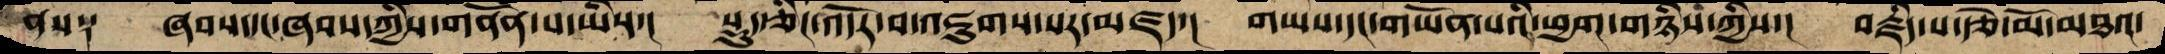ནས༑  ཞབས་དང་ཞབས་ཀྱིས་གནོན་པ་ཡིས་།  སྡུད་ཅིང་འདོར་བ་འཇུགས་པར་མཛད་།   གཡས་དང་གཡོན་པའི་ཕྱག་གཉིས་ཀྱིས་།  བརྗིད་པ་རྩེ་མོ་མཐའ་
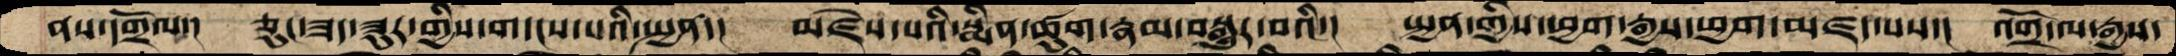ནས་དགྲོལ་།  ཅུང་ཟད་ཟུར་གྱིས་གདངས་པའི་སྤྱན་།  མཛེས་པའི་སྨིན་ཚུག་རྣམ་བསྒྱུར་བའི་།  སྤྱན་གྱིས་ཕྱག་རྒྱས་ཕྱག་མཛད་པས་།  འགྲོ་ལ་རྒྱས་
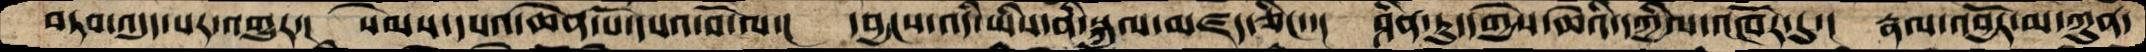བཏབ་འདུད་པར་འགྱུར་།  སེམས་དཔའ་ཆེན་པོ་དཔའ་བོ་ལ་།  དབྱངས་འདི་ཡིས་ནི་སྐུལ་མཛད་ཅིང་་།  ཤིན་ཏུ་དགྱེས་ཆེའི་དཀྱིལ་འཁོར་དུ་།  རྣལ་འབྱོར་མ་ཀུན་
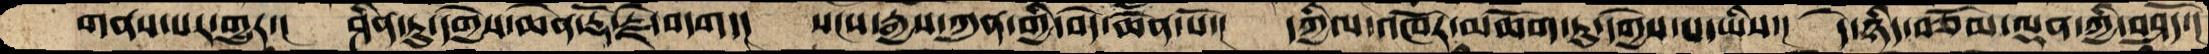གནས་པར་གྱུར་།  ཤིན་ཏུ་དགྱེས་ཆེན་རྡོ་རྗེ་བདག་།  སངས་རྒྱས་ཀུན་གྱི་བདེ་ཆེན་པོ་།  དཀྱིལ་འཁོར་མཆོག་ཏུ་དགྱེས་པ་ཡིས་།  དེ་ཉིད་བཅོམ་ལྡན་ཀྱི་བཤདོ་།
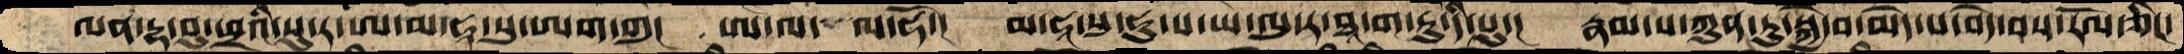ལན་དྷ་བུ་ཕྲའི་སུ་ར་ཨ་མ་ཧཱ་སུ་ཨག་གུ།  ཨ་ལ་ ལ་ཧོ་།  མ་ཧཱ་སུ་ཧུ་ས་ཡ་ལུ་ར་ཐཱ་ག་ཏུ་དི་པུ་།  རྣམ་པ་ཀུན་ཏུ་སྐྱེ་བ་མེད་པ་བདེ་བས་རོལ་ཅིང་
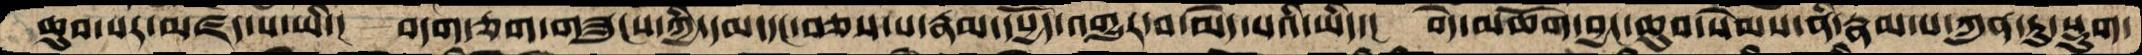ཆུབ་པར་མཛད་པ་ཡི་།  བདག་ཅག་གཟུངས་ཀྱི་དམ་དང་བཅས་པ་རྣམ་དཔྱོད་འགྱུར་བ་མེད་པའི་ཡིད་།  བདེ་མཆོག་བྱང་ཆུབ་སེམས་ནི་རྣམ་པ་ཀུན་ཏུ་སྡུག་
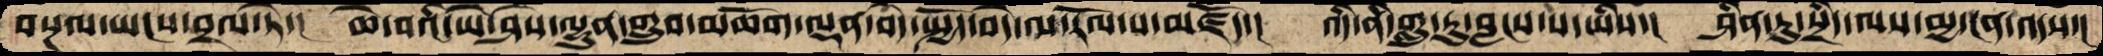བསྔལ་ཡངས་བྲལ་ཏེ་།  ཆེ་བའི་ཡེ་ཤེས་ལྷུན་གྲུབ་མཆོག་ལྡན་བདེ་སྤྱོད་བདེ་ལ་རོལ་པ་མཛོད་།  འདི་ནི་གླུ་རུ་བླངས་པ་ཡིས་།  ཤིན་ཏུ་སྲིད་ལས་མྱ་ངན་འདས་།
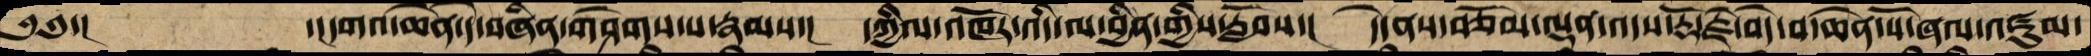༄༅་།       ་།དགའ་ཆེན་དེ་བཞིན་གཤེགས་པ་རྣམས་།  དཀྱིལ་འཁོར་འདི་ལ་བྱིན་གྱིས་རློབས་།  དེ་ནས་བཅོམ་ལྡན་འདས་རྡོ་རྗེ་བདེ་བ་ཆེན་པོ་ཞལ་འཛུམ་
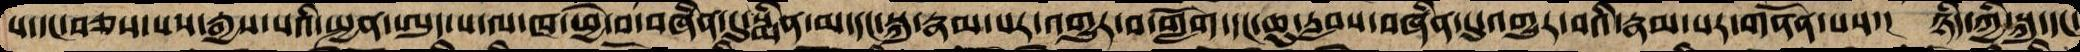པ་དང་བཅས་པས་རྒྱས་པའི་སྤྱན་ཨུད་པ་ལ་ཁ་ཕྱེ་བ་བཞིན་དུ་སྨིན་མ་དང་སྐུ་རྣམ་པར་འགྱུར་བ་གློག་དང་ཆུ་རླབས་འཞིན་དུ་འགྱུར་བའི་རྣམ་པར་གནོན་པས་།  ཉིད་ཀྱི་སྐུ་དང་
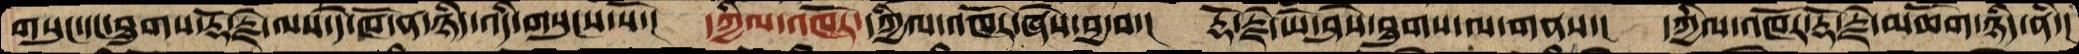གསུང་དང་ཐུགས་རྡོ་རྗེ་ལས་དེ་ཁོ་ན་ཉིད་འདི་གསུངས་སོ་།  དཀྱིལ་འཁོར་དཀྱིལ་འཁོར་ཞེས་བྱ་བ་།  རྡོ་རྗེ་ཡེ་ཤེས་ཐུགས་ལ་གནས་།  དཀྱིལ་འཁོར་རྡོ་རྗེ་མཆོག་ཉིད་ནི་།
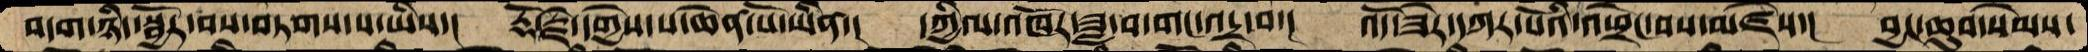བདག་ཉིད་སྦྱོར་བས་བཏགས་པ་ཡིས་།  རྡོ་རྗེ་དགྱེས་པ་ཆེན་པོ་ཡིན་།  དཀྱིལ་འཁོར་ཟླ་བ་གང་འདྲ་བ་།  འོད་ཟེར་དཀར་པོའི་འཕྲེང་བས་མཛེས་།  བྱང་ཆུབ་སེམས་
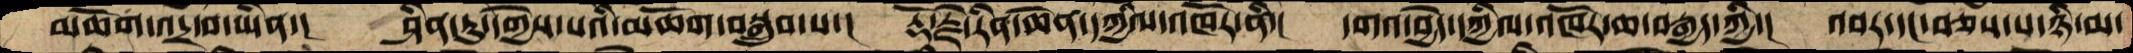མཆོག་འདྲ་བ་ཡིན་།  ཤིན་ཏུ་དགྱེས་པའི་མཆོག་བསྒྲུབ་པ་།  རྡོ་རྗེ་རིན་ཆེན་དཀྱིལ་འཁོར་ནི་།  དགའ་བྱེད་དཀྱིལ་འཁོར་ཆ་བརྒྱད་ཀྱི་།  འབར་དང་བཅས་པ་ཉི་མ་
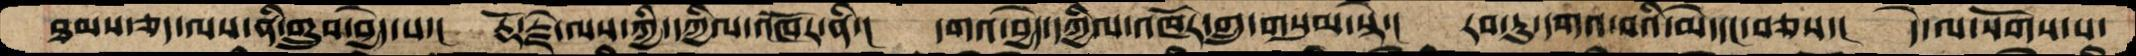ཐམས་ཅད་ལས་ནི་གྲུབ་བྱེད་པ་།  རྡོ་རྗེ་ལས་ཀྱི་དཀྱིལ་འཁོར་ནི་།  དགའ་བྱེད་དཀྱིལ་འཁོར་གྲུ་གསུམ་སྟེ་།  རབ་ཏུ་དགའ་བའི་མེ་དང་བཅས་།  དེ་ལ་སོགས་པ་
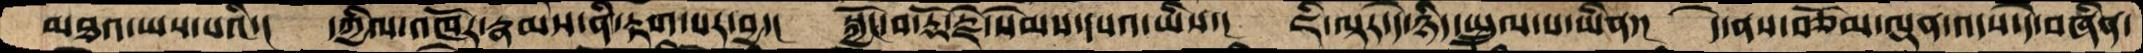མཐའ་ཡས་པའི་།  དཀྱིལ་འཁོར་རྣམས་ནི་རྟག་པར་བྱ་།  སྐྱོང་བ་རྡོ་རྗེ་སེམས་དཔའ་ཡིས་།  ཇིི་ལྟར་དེ་ཉིད་སྤྲུལ་པ་ཡིན་།  དེ་ནས་བཅོམ་ལྡན་འདས་དེ་བཞིན་
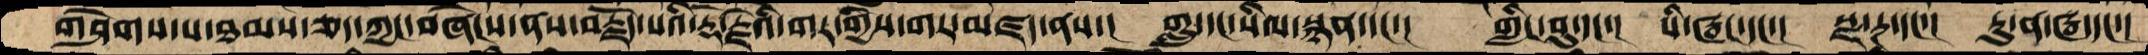གཤེགས་པ་ཐམས་ཅད་ཀྱང་བཞེངས་ནས་བརྗོད་པའི་རྡོ་རྗེའི་གར་གྱིས་གར་མཛད་ནས་།  གླུ་དང་སིལ་སྙན་དང་།   གླིང་བུ་དང་།   པི་ཝང་དང་།   སྫ་རྔ་དང་།  རུ་ན་ཝ་དང་།
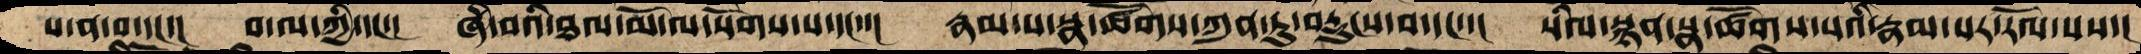པ་ན་བ་དང་།  བ་ལ་ཀྱི་དང་།  ཞི་བའི་ཐལ་མོ་ལ་སོགས་པ་དང་་།  རྣམ་པ་སྣ་ཚོགས་ཀུན་ཏུ་བརྡུངས་བ་དང་་།  སིལ་སྙན་སྣ་ཚོགས་པའི་རྣམ་པར་རོལ་པས་།
